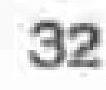32
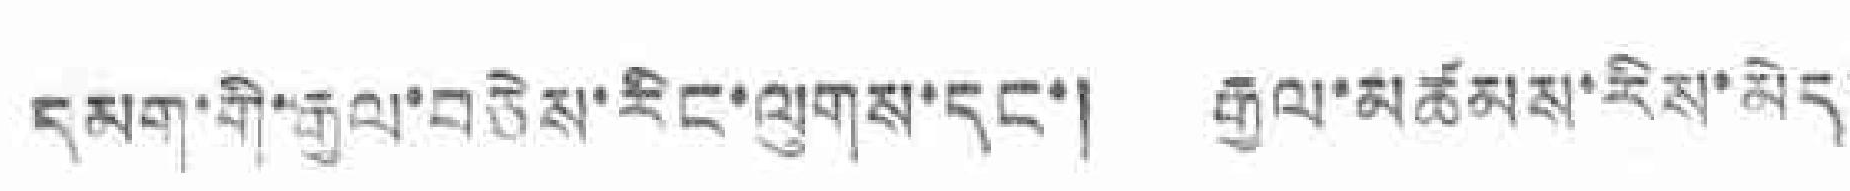དཔག་གི་རྒྱལ་བཅེས་རིང་ལུགས་དང་། རྒྱལ་མཚམས་རིས་མེད་
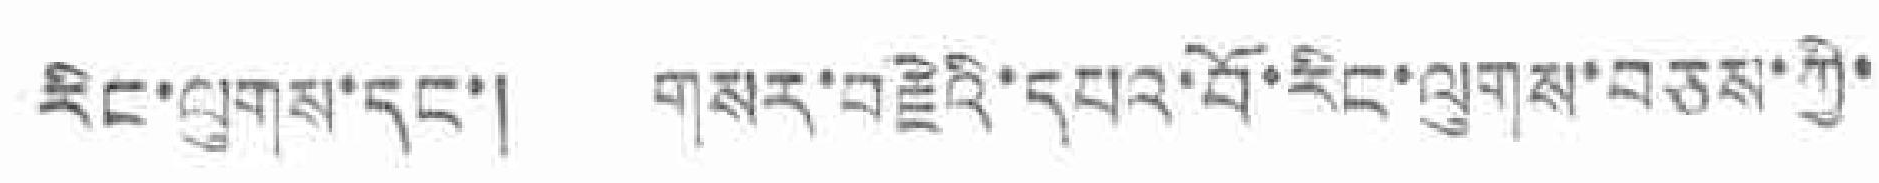རིང་ལུགས་དང་། གསར་བརྗེའི་དཔའ་བོ་རིང་ལུགས་བཅས་ཀྱི་
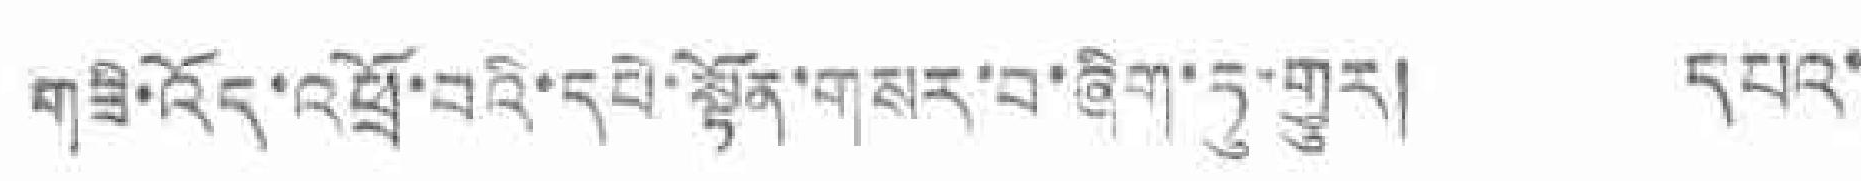གཟི་འོད་འཕྲོ་བའི་དཔེ་སྟོན་གསར་བ་ཞིག་ཏུ་གྱུར། དཔའ་
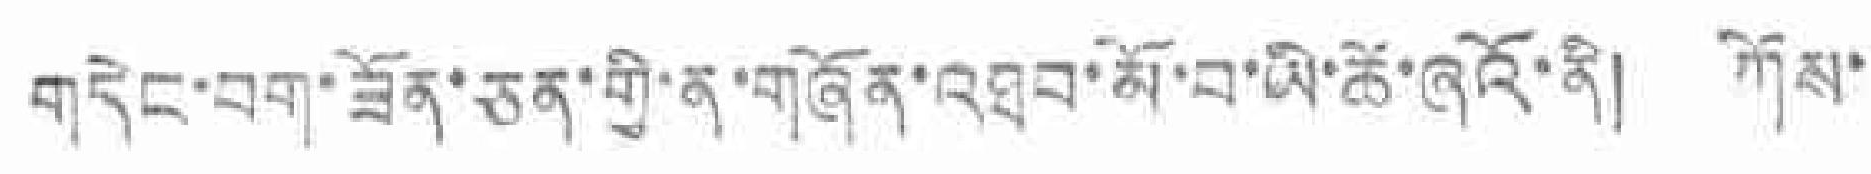གདེང་བག་ཟོན་ཅན་གྱི་ན་གཞོན་འཐབ་མོ་བ་ཡི་ཚེ་ཞའོ་ནི། ཀོས་
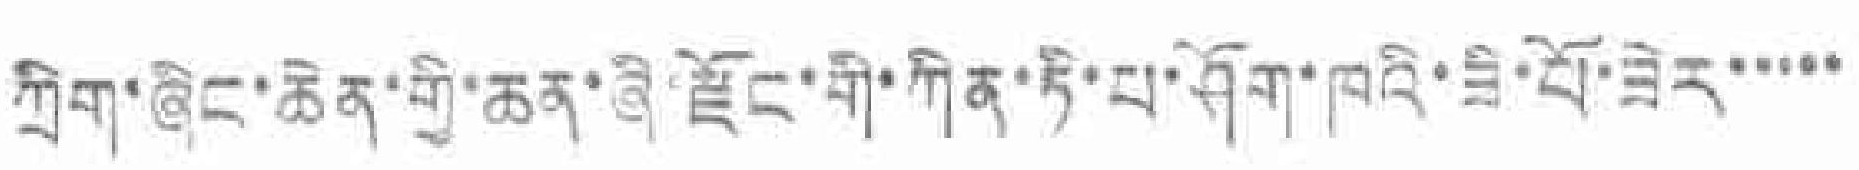ཀྲིག་ཞིང་ཆེན་གྱི་ཆན་ཞི་རྫོང་གི་ཀིན་ཏི་པ་ཤོག་ཁའི་ཟི་པོ་ཟེར་་་་་
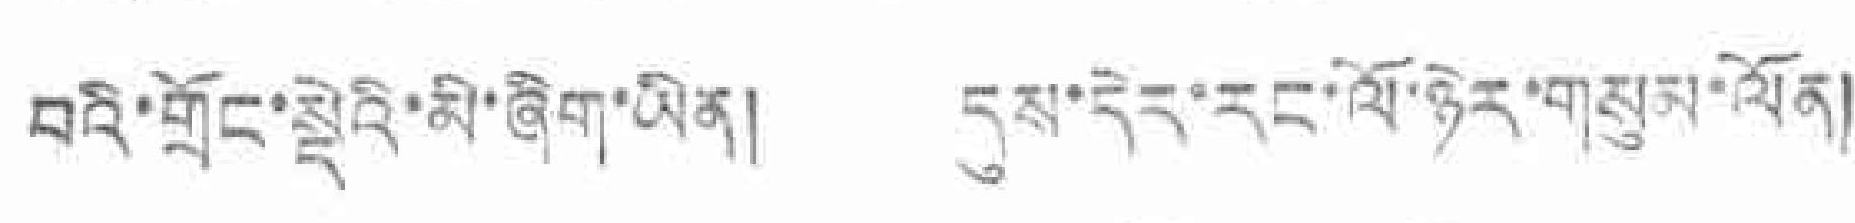བའི་གྲོང་སྡེའི་མི་ཞིག་ཡིན། དུས་དེར་རང་ལོ་ཉེར་གསུམ་ལོན།
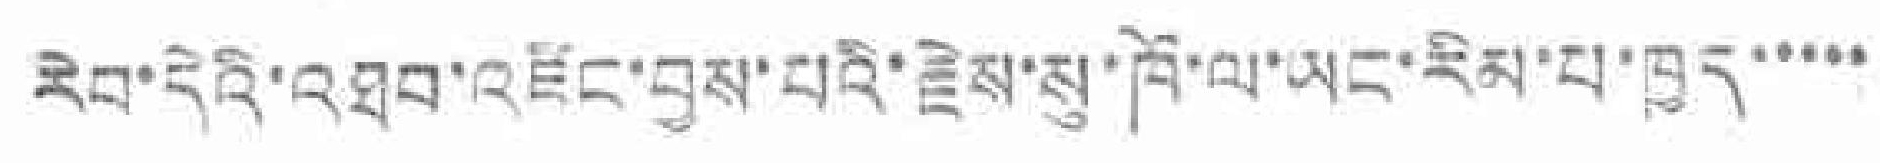རེབ་དེའི་འཐབ་འཛིང་བྱས་པའི་རྗེས་སུ་ཁོ་ལ་ཡང་རིམ་པ་ཁྱར་་་་་
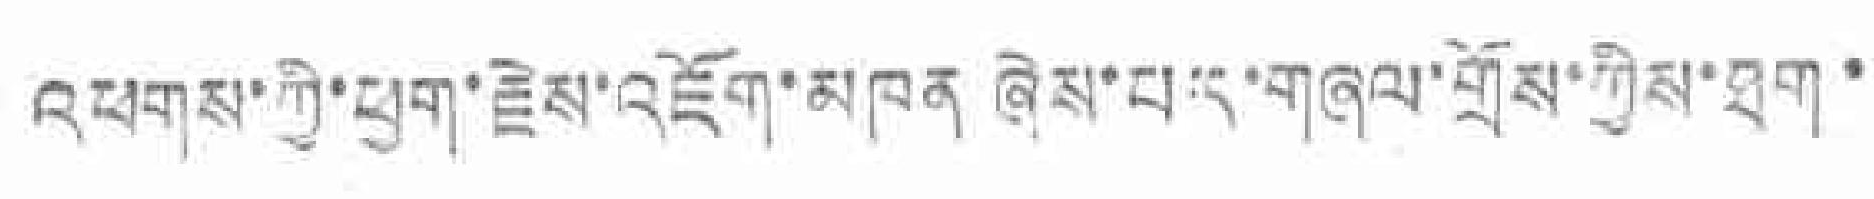འཕགས་ཀྱི་ཕྱག་རྗེས་འཇོག་མཁན་ཞེས་པར་གཞལ་གྲོས་ཀྱིས་ཐག་
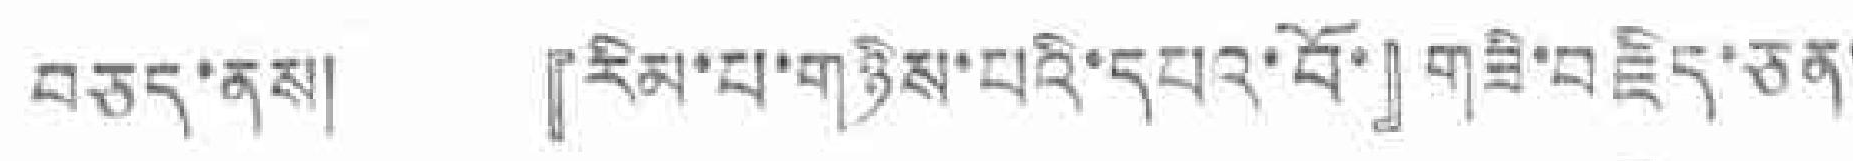བཅད་ནས། 『རིམ་པ་གཉིས་པའི་དཔའ་བོ་』གཟི་བརྗིད་ཅན་
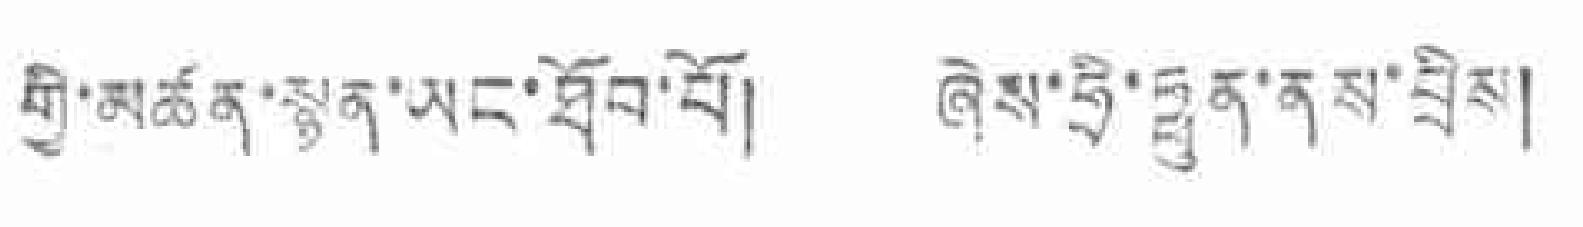གྱི་མཚན་སྙན་ཡང་ཐོབ་པོ། ཞེས་ཧྲི་ཧྥུན་ནས་བྲིས།
